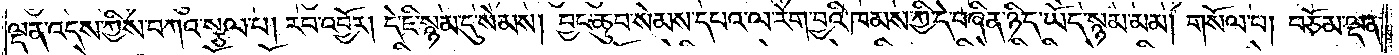ལྡན་འདས་ཀྱིས་བཀའ་སྩལ་པ། རབ་འབྱོར། དེ་ཇི་སྙམ་དུ་སེམས། བྱང་ཆུབ་སེམས་དཔའ་ལ་རེག་བྱའི་ཁམས་ཀྱི་དེ་བཞིན་ཉིད་ཡོད་སྙམ་མམ། གསོལ་པ། བཅོམ་ལྡན་
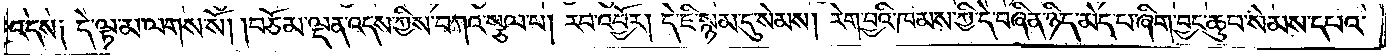འདས༑ དེ་ལྟ་མ་ལགས་སོ། །བཅོམ་ལྡན་འདས་ཀྱིས་བཀའ་སྩལ་པ། རབ་འབྱོར། དེ་ཇི་སྙམ་དུ་སེམས། རེག་བྱའི་ཁམས་ཀྱི་དེ་བཞིན་ཉིད་མེད་པ་ཞིག་བྱང་ཆུབ་སེམས་དཔའ་
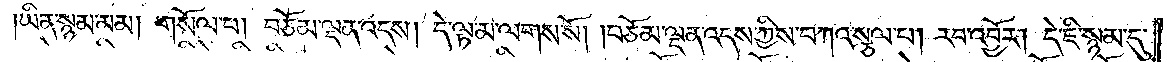ཡིན་སྙམ་མམ། གསོལ་པ། བཅོམ་ལྡན་འདས། དེ་ལྟ་མ་ལགས་སོ། །བཅོམ་ལྡན་འདས་ཀྱིས་བཀའ་སྩལ་པ། རབ་འབྱོར། དེ་ཇི་སྙམ་དུ་
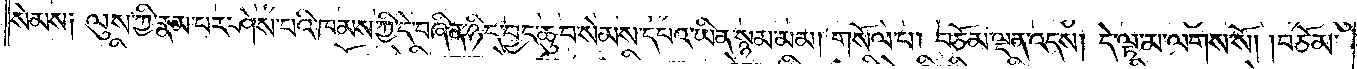སེམས༑ ལུས་ཀྱི་རྣམ་པར་ཤེས་པའི་ཁམས་ཀྱི་དེ་བཞིན་ཉིད་བྱང་ཆུབ་སེམས་དཔའ་ཡིན་སྙམ་མམ། གསོལ་པ། བཅོམ་ལྡན་འདས། དེ་ལྟ་མ་ལགས་སོ། །བཅོམ་
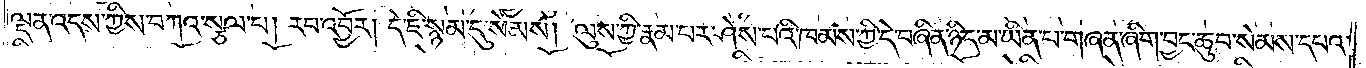ལྡན་འདས་ཀྱིས་བཀའ་སྩལ་པ། རབ་འབྱོར། དེ་ཇི་སྙམ་དུ་སེམས། ལུས་ཀྱི་རྣམ་པར་ཤེས་པའི་ཁམས་ཀྱི་དེ་བཞིན་ཉིད་མ་ཡིན་པ་གཞན་ཞིག་བྱང་ཆུབ་སེམས་དཔའ་
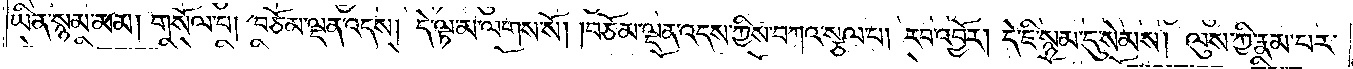ཡིན་སྙམ་མམ། གསོལ་པ། བཅོམ་ལྡན་འདས། དེ་ལྟ་མ་ལགས་སོ། །བཅོམ་ལྡན་འདས་ཀྱིས་བཀའ་སྩལ་པ། རབ་འབྱོར། དེ་ཇི་སྙམ་དུ་སེམས། ལུས་ཀྱི་རྣམ་པར་
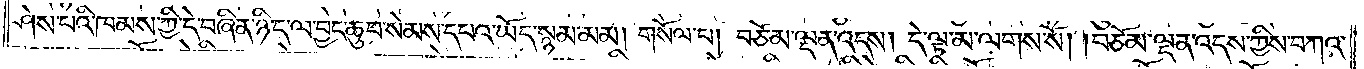ཤེས་པའི་ཁམས་ཀྱི་དེ་བཞིན་ཉིད་ལ་བྱང་ཆུབ་སེམས་དཔའ་ཡོད་སྙམ་མམ། གསོལ་པ། བཅོམ་ལྡན་འདས། དེ་ལྟ་མ་ལགས་སོ། །བཅོམ་ལྡན་འདས་ཀྱིས་བཀའ་
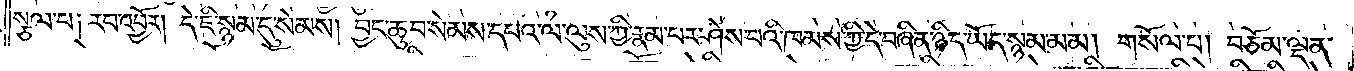སྩལ་པ༑ རབ་འབྱོར། དེ་ཇི་སྙམ་དུ་སེམས། བྱང་ཆུབ་སེམས་དཔའ་ལ་ལུས་ཀྱི་རྣམ་པར་ཤེས་པའི་ཁམས་ཀྱི་དེ་བཞིན་ཉིད་ཡོད་སྙམ་མམ། གསོལ་པ། བཅོམ་ལྡན་
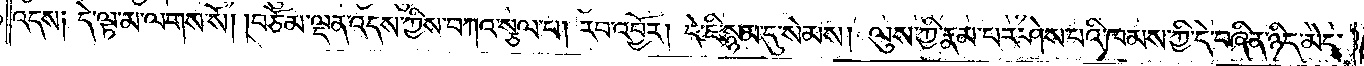འདས༑ དེ་ལྟ་མ་ལགས་སོ། །བཅོམ་ལྡན་འདས་ཀྱིས་བཀའ་སྩལ་པ། རབ་འབྱོར། དེ་ཇི་སྙམ་དུ་སེམས། ལུས་ཀྱི་རྣམ་པར་ཤེས་པའི་ཁམས་ཀྱི་དེ་བཞིན་ཉིད་མེད་
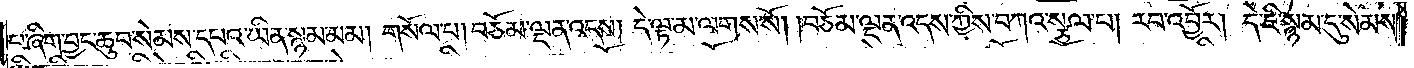པ་ཞིག་བྱང་ཆུབ་སེམས་དཔའ་ཡིན་སྙམ་མམ། གསོལ་པ། བཅོམ་ལྡན་འདས། དེ་ལྟ་མ་ལགས་སོ། །བཅོམ་ལྡན་འདས་ཀྱིས་བཀའ་སྩལ་པ། རབ་འབྱོར། དེ་ཇི་སྙམ་དུ་སེམས།
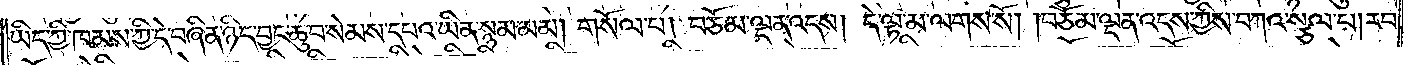ཡིད་ཀྱི་ཁམས་ཀྱི་དེ་བཞིན་ཉིད་བྱང་ཆུབ་སེམས་དཔའ་ཡིན་སྙམ་མམ། གསོལ་པ། བཅོམ་ལྡན་འདས། དེ་ལྟ་མ་ལགས་སོ། །བཅོམ་ལྡན་འདས་ཀྱིས་བཀའ་སྩལ་པ། རབ་
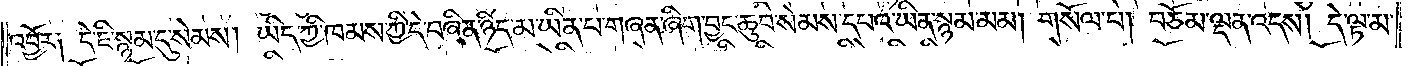འབྱོར༑ དེ་ཇི་སྙམ་དུ་སེམས། ཡིད་ཀྱི་ཁམས་ཀྱི་དེ་བཞིན་ཉིད་མ་ཡིན་པ་གཞན་ཞིག་བྱང་ཆུབ་སེམས་དཔའ་ཡིན་སྙམ་མམ། གསོལ་པ། བཅོམ་ལྡན་འདས། དེ་ལྟ་མ་
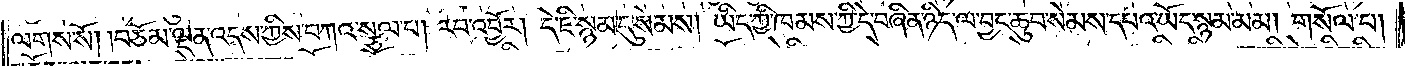ལགས་སོ། །བཅོམ་ལྡན་འདས་ཀྱིས་བཀའ་སྩལ་པ། རབ་འབྱོར། དེ་ཇི་སྙམ་དུ་སེམས། ཡིད་ཀྱི་ཁམས་ཀྱི་དེ་བཞིན་ཉིད་ལ་བྱང་ཆུབ་སེམས་དཔའ་ཡོད་སྙམ་མམ། གསོལ་པ།
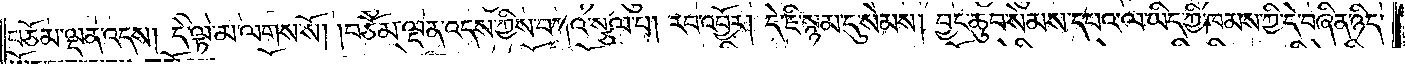བཅོམ་ལྡན་འདས། དེ་ལྟ་མ་ལགས་སོ། །བཅོམ་ལྡན་འདས་ཀྱིས་བཀའ་སྩལ་པ། རབ་འབྱོར། དེ་ཇི་སྙམ་དུ་སེམས། བྱང་ཆུབ་སེམས་དཔའ་ལ་ཡིད་ཀྱི་ཁམས་ཀྱི་དེ་བཞིན་ཉིད་
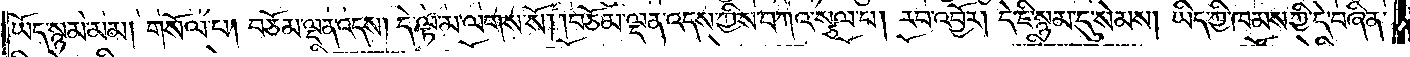ཡོད་སྙམ་མམ། གསོལ་པ། བཅོམ་ལྡན་འདས། དེ་ལྟ་མ་ལགས་སོ། །བཅོམ་ལྡན་འདས་ཀྱིས་བཀའ་སྩལ་པ། རབ་འབྱོར། དེ་ཇི་སྙམ་དུ་སེམས། ཡིད་ཀྱི་ཁམས་ཀྱི་དེ་བཞིན་
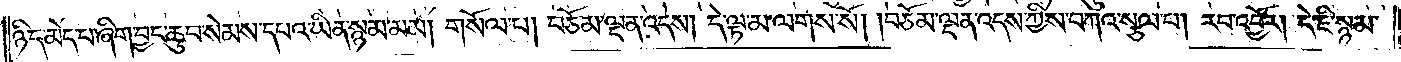ཉིད་མེད་པ་ཞིག་བྱང་ཆུབ་སེམས་དཔའ་ཡིན་སྙམ་མམ། གསོལ་པ། བཅོམ་ལྡན་འདས། དེ་ལྟ་མ་ལགས་སོ། །བཅོམ་ལྡན་འདས་ཀྱིས་བཀའ་སྩལ་པ། རབ་འབྱོར། དེ་ཇི་སྙམ་
